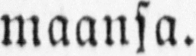maansa.
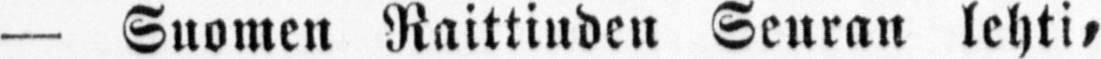— Suomen Raittiuden Seuran lehti,
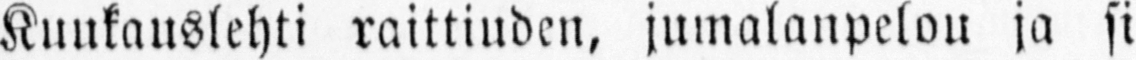Kuukauslehti raittiuden, jumalanpelou ja si-
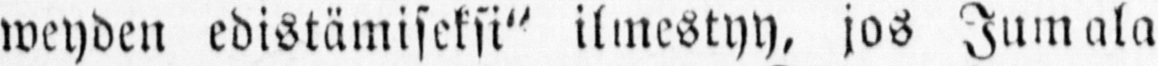weyden edistämiseksi" ilmestyy, jos Jumala
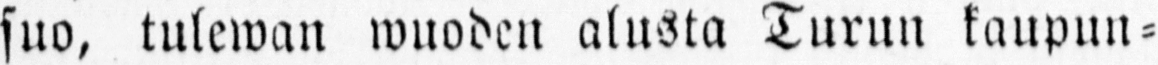suo, tulewan wuoden alusta Turun kaupun-
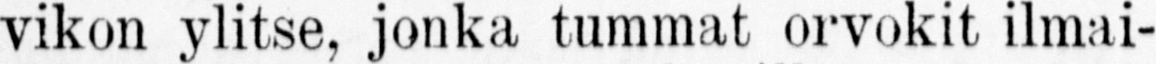vikon ylitse, jonka tummat orvokit, ilmai-
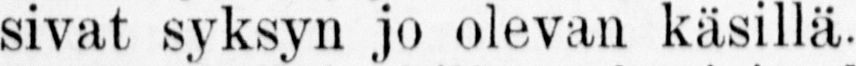sivant syksyn jo olevan käsillä.
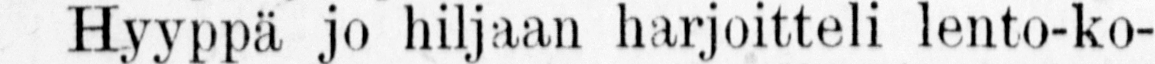Hyyppä jo hiljaan harjoitteli lento-ko-
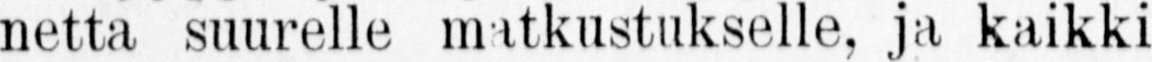netta suurelle matkustukselle, ja kaikki
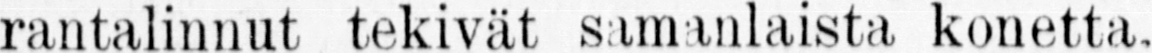rantalinnut tekivät sumanlaista konetta,
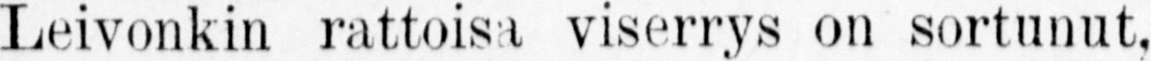Leivonkin rattoisa viserrys on sortunut,
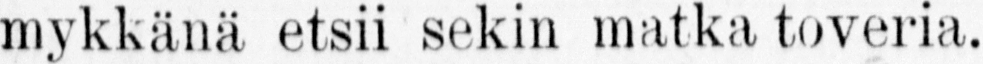mykkänä etsii sekin matka toveria. Mut-
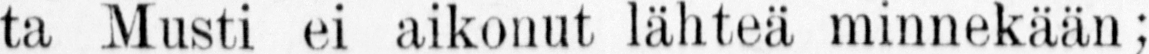ta Musti ei aikonut lähteä minnekään;
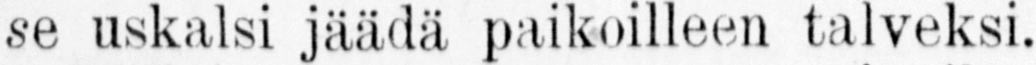se uskalsi paikoilleen talveksi.
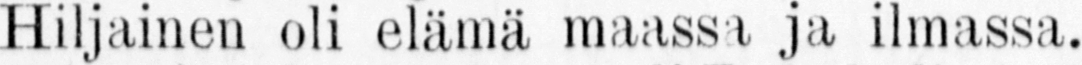Hiljainen oli elämä maassa ja ilmassa.
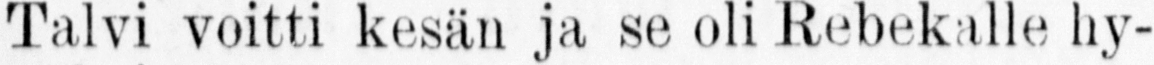Talvi voitti kesän ja se oli Rebekalle hy-
